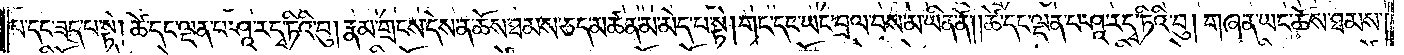པ་དང་ཟད་པ་སྟེ། ཚེ་དང་ལྡན་པ་ཤཱ་ར་དྭ་ཏིའི་བུ། རྣམ་གྲངས་དེས་ན་ཆོས་ཐམས་ཅད་མཚན་མ་མེད་པ་སྟེ། གང་དང་ཡང་བྲལ་བས་མ་ཡིན་ནོ། །ཚེ་དང་ལྡན་པ་ཤཱ་ར་དྭ་ཏིའི་བུ། གཞན་ཡང་ཆོས་ཐམས་
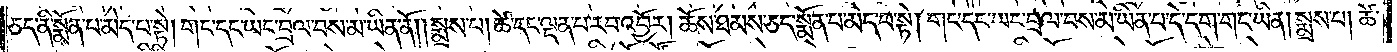ཅད་ནི་སྨོན་པ་མེད་པ་སྟེ། གང་དང་ཡང་བྲལ་བས་མ་ཡིན་ནོ། །སྨྲས་པ། ཚེ་དང་ལྡན་པ་རབ་འབྱོར། ཆོས་ཐམས་ཅད་སྨོན་པ་མེད་པ་སྟེ། གང་དང་ཡང་བྲལ་བས་མ་ཡིན་པ་དེ་དག་གང་ཡིན། སྨྲས་པ། ཚེ་
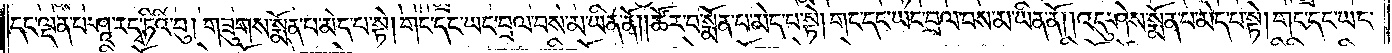དང་ལྡན་པ་ཤཱ་ར་དྭ་ཏིའི་བུ། གཟུགས་སྨོན་པ་མེད་པ་སྟེ། གང་དང་ཡང་བྲལ་བས་མ་ཡིན་ནོ། །ཚོར་པ་སྨོན་པ་མེད་པ་སྟེ། གང་དང་ཡང་བྲལ་བས་མ་ཡིན་ནོ། །འདུ་ཤེས་སྨོན་པ་མེད་པ་སྟེ། གང་དང་ཡང་
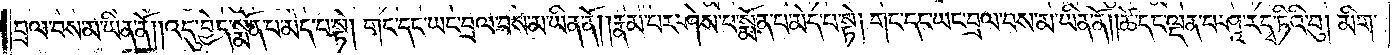བྲལ་བས་མ་ཡིན་ནོ། །འདུ་བྱེད་སྨོན་པ་མེད་པ་སྟེ། གང་དང་ཡང་བྲལ་བས་མ་ཡིན་ནོ། །རྣམ་པར་ཤེས་པ་སྨོན་པ་མེད་པ་སྟེ། གང་དང་ཡང་བྲལ་བས་མ་ཡིན་ནོ། །ཚེ་དང་ལྡན་པ་ཤཱ་ར་དྭ་ཏིའི་བུ། མིག་
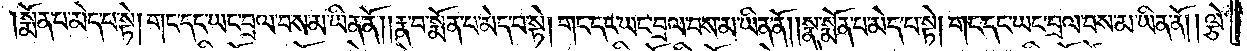སྨོན་པ་མེད་པ་སྟེ། གང་དང་ཡང་བྲལ་བས་མ་ཡིན་ནོ། །རྣམ་བ་སྨོན་པ་མེད་པ་སྟེ། གང་དང་ཡང་བྲལ་བས་མ་ཡིན་ནོ། །སྣ་སྨོན་པ་མེད་པ་སྟེ། གང་དང་ཡང་བྲལ་བས་མ་ཡིན་ནོ། །ལྕེ་
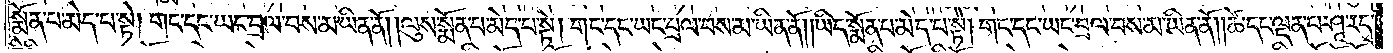སྨོན་པ་མེད་པ་སྟེ། གང་དང་ཡང་བྲལ་བས་མ་ཡིན་ནོ། །ལུས་སྨོན་པ་མེད་པ་སྟེ། གང་དང་ཡང་བྲལ་བས་མ་ཡིན་ནོ། །ཡིད་སྨོན་པ་མེད་པ་སྟེ། གང་དང་ཡང་བྲལ་བས་མ་ཡིན་ནོ། །ཚེ་དང་ལྡན་པ་ཤཱ་ར་དྭ་
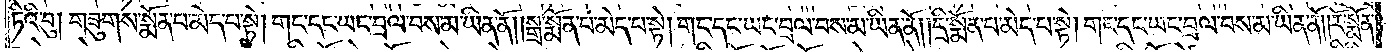ཏིའི་བུ། གཟུགས་སྨོན་པ་མེད་པ་སྟེ། གང་དང་ཡང་བྲལ་བས་མ་ཡིན་ནོ། །སྒྲ་སྨོན་པ་མེད་པ་སྟེ། གང་དང་ཡང་བྲལ་བས་མ་ཡིན་ནོ། །དྲི་སྨོན་པ་མེད་པ་སྟེ། གང་དང་ཡང་བྲལ་བས་མ་ཡིན་ནོ། །རོ་སྨོན་
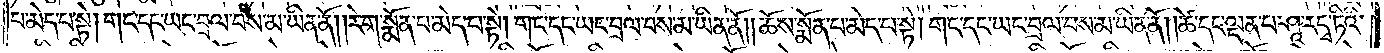པ་མེད་པ་སྟེ། གང་དང་ཡང་བྲལ་བས་མ་ཡིན་ནོ། །རེག་སྨོན་པ་མེད་པ་སྟེ། གང་དང་ཡང་བྲལ་བས་མ་ཡིན་ནོ། །ཆོས་སྨོན་པ་མེད་པ་སྟེ། གང་དང་ཡང་བྲལ་བས་མ་ཡིན་ནོ། །ཚེ་དང་ལྡན་པ་ཤཱ་ར་དྭ་ཏིའི་
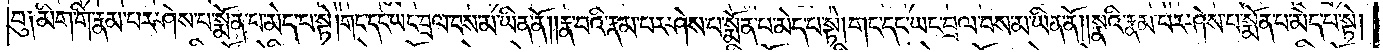བུ༑ མིག་གི་རྣམ་པར་ཤེས་པ་སྨོན་པ་མེད་པ་སྟེ། གང་དང་ཡང་བྲལ་བས་མ་ཡིན་ནོ༎ རྣ་བའི་རྣམ་པར་ཤེས་པ་སྨོན་པ་མེད་པ་སྟེ། གང་དང་ཡང་བྲལ་བས་མ་ཡིན་ནོ། །སྣའི་རྣམ་པར་ཤེས་པ་སྨོན་པ་མེད་པ་སྟེ།
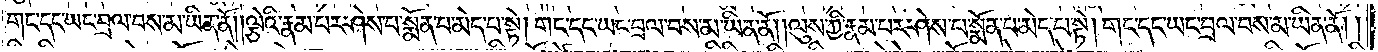གང་དང་ཡང་བྲལ་བས་མ་ཡིན་ནོ། །ལྕེའི་རྣམ་པར་ཤེས་པ་སྨོན་པ་མེད་པ་སྟེ། གང་དང་ཡང་བྲལ་བས་མ་ཡིན་ནོ། །ལུས་ཀྱི་རྣམ་པར་ཤེས་པ་སྨོན་པ་མེད་པ་སྟེ། གང་དང་ཡང་བྲལ་བས་མ་ཡིན་ནོ། །
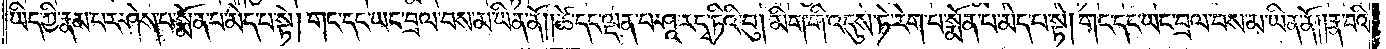ཡིད་ཀྱི་རྣམ་པར་ཤས་པ་སྨོན་པ་མེད་པ་སྟེ། གང་དང་ཡང་བྲལ་བས་མ་ཡིན་ནོ། །ཚེ་དང་ལྡན་པ་ཤཱ་ར་དྭ་ཏིའི་བུ། མིག་གི་འདུས་ཏེ་རེག་པ་སྨོན་པ་མེད་པ་སྟེ། གང་དང་ཡང་བྲལ་བས་མ་ཡིན་ནོ། །རྣ་བའི་
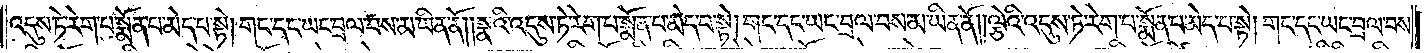འདུས་ཏེ་རེག་པ་སྨོན་པ་མེད་པ་སྟེ། གང་དང་ཡང་བྲལ་བས་མ་ཡིན་ནོ། །སྣའི་འདུས་ཏེ་རེག་པ་སྨོན་པ་མེད་པ་སྟེ། གང་དང་ཡང་བྲལ་བས་མ་ཡིན་ནོ། །ལྕེའི་འདུས་ཏེ་རེག་པ་སྨོན་པ་མེད་པ་སྟེ། གང་དང་ཡང་བྲལ་བས་
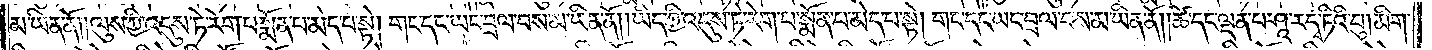མ་ཡིན་ནོ། །ལུས་ཀྱི་འདུས་ཏེ་རེག་པ་སྨོན་པ་མེད་པ་སྟེ། གང་དང་ཡང་བྲལ་བས་མ་ཡིན་ནོ། །ཡིད་ཀྱི་འདུས་ཏེ་རེག་པ་སྨོན་པ་མེད་པ་སྟེ། གང་དང་ཡང་བྲལ་བས་མ་ཡིན་ནོ། །ཚེ་དང་ལྡན་པ་ཤཱ་ར་དྭ་ཏིའི་བུ། མིག་
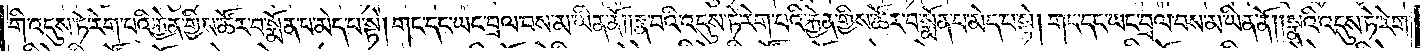གི་འདུས་ཏེ་རེག་པའི་རྐྱེན་གྱིས་ཚོར་བ་སྨོན་པ་མེད་པ་སྟེ། གང་དང་ཡང་བྲལ་བས་མ་ཡིན་ནོ། །རྣ་བའི་འདུས་ཏེ་རེག་པའི་རྐྱེན་གྱིས་ཚོར་བ་སྨོན་པ་མེད་པ་སྟེ། གང་དང་ཡང་བྲལ་བས་མ་ཡིན་ནོ། །སྣའི་འདུས་ཏེ་རེག་
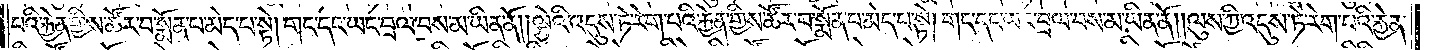པའི་རྐྱེན་གྱིས་ཚོར་བ་སྨོན་པ་མེད་པ་སྟེ། གང་དང་ཡང་བྲལ་བས་མ་ཡིན་ནོ། །ལྕེའི་འདུས་ཏེ་རེག་པའི་རྐྱེན་གྱིས་ཚོར་བ་སྨོན་པ་མེད་པ་སྟེ། གང་དང་ཡང་བྲལ་བས་མ་ཡིན་ནོ། །ལུས་ཀྱི་འདུས་ཏེ་རེག་པའི་རྐྱེན་
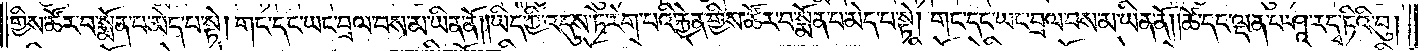གྱིས་ཚོར་བ་སྨོན་པ་མེད་པ་སྟེ། གང་དང་ཡང་བྲལ་བས་མ་ཡིན་ནོ། །ཡིད་ཀྱི་འདུས་ཏེ་རེག་པའི་རྐྱེན་གྱིས་ཚོར་བ་སྨོན་པ་མེད་པ་སྟེ། གང་དང་ཡང་བྲལ་བས་མ་ཡིན་ནོ། །ཚེ་དང་ལྡན་པ་ཤཱ་ར་དྭ་ཏིའི་བུ།
